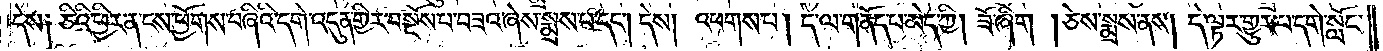དེས༑ ཅིའི་ཕྱིར་ན་ངས་ཕྱོགས་བཞིའི་དགེ་འདུན་གྱིར་བསྔོས་པ་བཟའ་ཞེས་སྨྲས་པ་དང༌། དེས། འཕགས་པ། དེ་ལ་གནོད་པ་མེད་ཀྱི། ཟོ་ཞིག །ཅེས་སྨྲས་ནས། དེ་ལྟར་གྱུར་པ་དགེ་སློང་
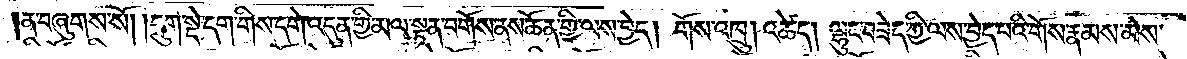ན་བཞུགས་སོ། །དྲུག་སྡེ་དག་གིས་དགེ་འདུན་གྱི་མལ་སྟན་བགོས་ནས་ཚོན་གྱི་ལས་བྱེད། གོས་འཁྲུ། འཚེད། ལྷུང་བཟེད་ཀྱི་ལས་བྱེད་པའི་གོས་རྣམས་མེས་
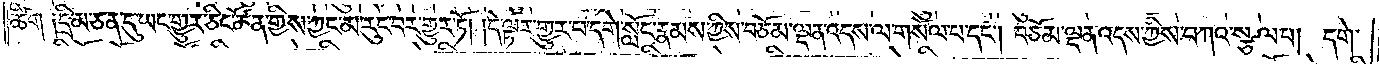ཚིག་༑དྲི་མ་ཅན་དུ་ཡང་གྱུར་ཅིང་ཚོན་གྱིས་ཀྱང་མ་རུང་བར་གྱུར་ཏོ། །དེ་ལྟར་གྱུར་པ་དགེ་སློང་རྣམས་ཀྱིས་བཅོམ་ལྡན་འདས་ལ་གསོལ་པ་དང༌། བཅོམ་ལྡན་འདས་ཀྱིས་བཀའ་སྩལ་པ། དགེ་
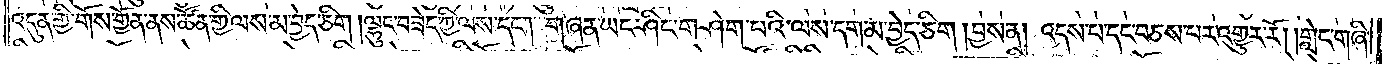འདུན་གྱི་གོས་གྱོན་ནས་ཚོན་གྱི་ལས་མ་བྱེད་ཅིག །ལྷུང་བཟེད་ཀྱི་ལས་དང༌། གཞན་ཡང་ཤིང་གཤེག་པའི་ལས་དག་མ་བྱེད་ཅིག །བྱས་ན། འདས་པ་དང་བཅས་པར་འགྱུར་རོ། །གླེང་གཞི་
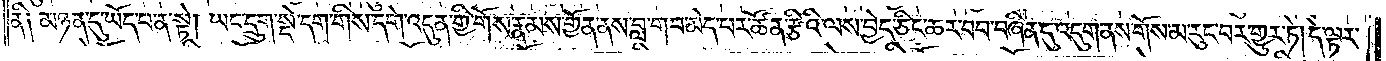ནི༑ མཉན་དུ་ཡོད་པ་ན་སྟེ། ཡང་དྲུག་སྡེ་དག་གིས་དགེ་འདུན་གྱི་གོས་རྣམས་གྱོན་ནས་བླ་གབ་མེད་པར་ཚོན་རྩིའི་ལས་བྱེད་ཅིང་ཆར་བབ་བཞིན་དུ་འདུག་ནས་གོས་མ་རུང་བར་གྱུར་ཏེ། དེ་ལྟར་
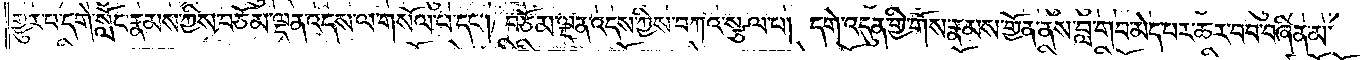གྱུར་པ་དགེ་སློང་རྣམས་ཀྱིས་བཅོམ་ལྡན་འདས་ལ་གསོལ་པ་དང༌། བཅོམ་ལྡན་འདས་ཀྱིས་བཀའ་སྩལ་པ། དགེ་འདུན་གྱི་གོས་རྣམས་གྱོན་ནས་བླ་གབ་མེད་པར་ཆར་བབ་བཞིན་མ་
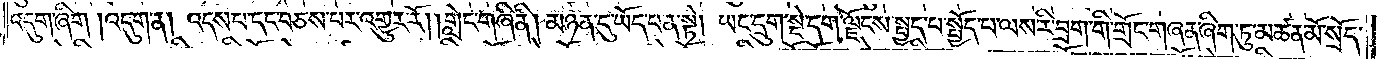འདུག་ཞིག །འདུག་ན། འདས་པ་དང་བཅས་པར་འགྱུར་རོ། །གླེང་གཞི་ནི། མཉན་དུ་ཡོད་པ་ན་སྟེ། ཡང་དྲུག་སྡེ་དག་ལྗོངས་སྤྱད་པ་སྤྱོད་པ་ལས་རི་བྲག་གི་གྲོང་གཞན་ཞིག་ཏུ་མཚན་མོ་སྲོད་
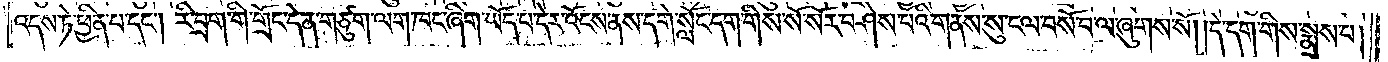འདས་ཏེ་ཕྱིན་པ་དང༌། རི་བྲག་གི་གྲོང་དེ་ན་གཙུག་ལག་ཁང་ཞིག་ཡོད་པ་དེར་འོངས་ནས་དགེ་སློང་དག་གིས་སོ་སོར་བཤེས་པའི་གནས་སུ་ངལ་བསོ་བ་ལ་ཞུགས་སོ། །དེ་དག་གིས་སྨྲས་པ།
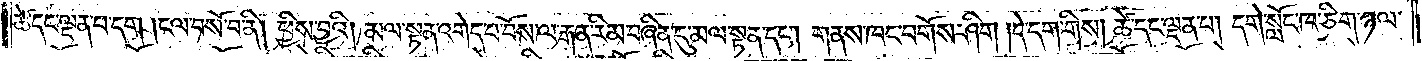ཚེ་དང་ལྡན་པ་དག །ངལ་བསོ་བ་ནི། ཕྱིས་བྱའི། མལ་སྟན་འགེད་པ་བོས་ལ་རྒན་རིམ་བཞིན་དུ་མལ་སྟན་དང༌། གནས་ཁང་བགོས་ཤིག །དེ་དག་གིས། ཚེ་དང་ལྡན་པ། དགེ་སློང་ཁ་ཅིག་ཉལ་
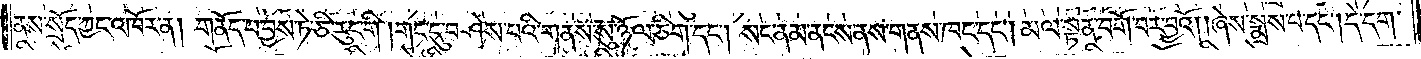ནས་སྲོད་ཀྱང་འཁོར་ན། གནོད་པ་བྱས་ཏེ་ཅི་རུང་གི །གང་དུ་བཤེས་པའི་གནས་སུ་ཉོལ་ཅིག་དང༌། སང་ནམ་ནངས་ནས་གནས་ཁང་དང༌། མལ་སྟན་བགོ་བར་བྱའོ། །ཞེས་སྨྲས་པ་དང༌། དེ་དག་
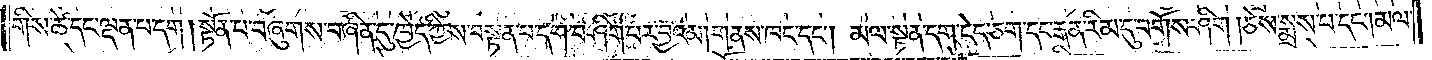གིས་ཚེ་དང་ལྡན་པ་དག །སྟོན་པ་བཞུགས་བཞིན་དུ་ཁྱེད་ཀྱིས་བསྟན་པ་དག་བཤིག་པར་བྱའམ། གནས་ཁང་དང༌། མལ་སྟན་དག་ངེད་ཅག་དང་རྒན་རིམ་དུ་བགོས་ཤིག །ཅེས་སྨྲས་པ་དང༌། མལ་
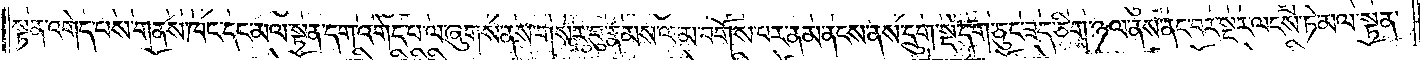སྟན་འགེད་པས་གནས་ཁང་དང་མལ་སྟན་དག་འགེད་པ་ལ་ཞུགས་ནས་གསར་བུ་རྣམས་ལ་མ་བགོས་པར་ནམ་ནངས་ནས་དྲུག་སྡེ་དག་ཅུང་ཟད་ཅིག་ཉལ་ནས་ནང་བར་སྔར་ལངས་ཏེ་མལ་སྟན་
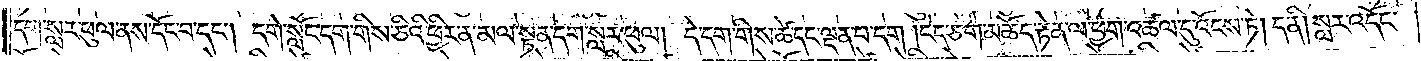དག་སླར་ཕུལ་ནས་དོང་བ་དང༌། དགེ་སློང་དག་གིས་ཅིའི་ཕྱིར་ན་མལ་སྟན་དག་སླར་ཕུལ། དེ་དག་གིས་ཚེ་དང་ལྡན་པ་དག །ངེད་ཅག་མཆོད་རྟེན་ལ་ཕྱག་འཚལ་དུ་འོངས་ཏེ། ད་ནི། སླར་འདོང་
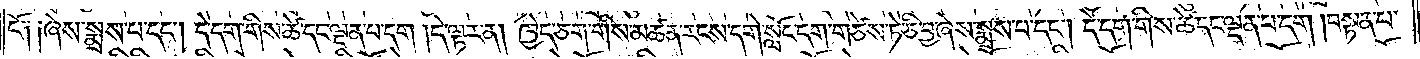ངོ༌། །ཞེས་སྨྲས་པ་དང༌། དེ་དག་གིས་ཚེ་དང་ལྡན་པ་དག །དེ་ལྟར་ན། ཁྱེད་ཅག་གིས་མཚན་རངས་དགེ་སློང་དག་གཙེས་ཏེ་ཅི་བྱ་ཞེས་སྨྲས་པ་དང༌། དེ་དག་གིས་ཚེ་དང་ལྡན་པ་དག །བསྟན་པ་
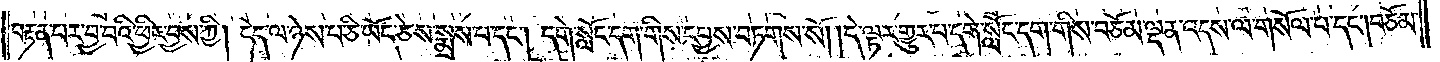བརྟན་པར་བྱ་བའི་ཕྱིར་བྱས་ཀྱི། ངེད་ལ་ཉེས་པ་ཅི་ཡོད་ཅེས་སྨྲས་པ་དང༌། དགེ་སློང་དག་གིས་དཔྱས་བཏགས་སོ། །དེ་ལྟར་གྱུར་པ་དགེ་སློང་དག་གིས་བཅོམ་ལྡན་འདས་ལ་གསོལ་པ་དང༌། བཅོམ་
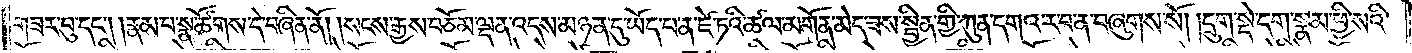གཟར་བུ་དང༌། །རྣམ་པ་སྣ་ཚོགས་དེ་བཞིན་ནོ། །སངས་རྒྱས་བཅོམ་ལྡན་འདས་མཉན་དུ་ཡོད་པ་ན་ཛེ་ཏའི་ཚལ་མགོན་མེད་ཟས་སྦྱིན་གྱི་ཀུན་དགའ་ར་བ་ན་བཞུགས་སོ། །དྲུག་སྡེ་དག་སྣམ་ཕྱི་སའི་
